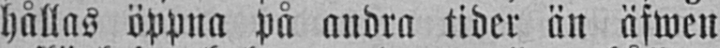hållas öppna på andra tider än äfwen
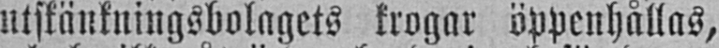utskänkningsbolagets krogar öppenhållas,
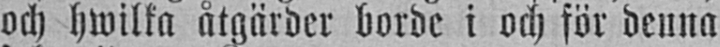och hwilka åtgärder borde i och för denna
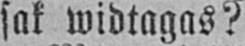sak widtagas?
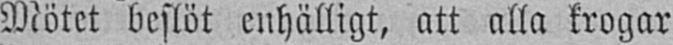Mötet beslöt enhälligt, att alla krogar
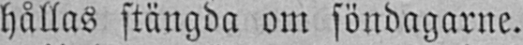hållas stängda om söndagarne.
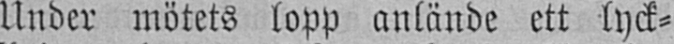Under mötets lopp anlände ett lyck-
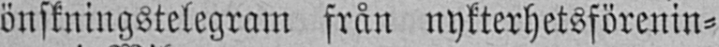önskningstelegram från nykterhetsförenin-
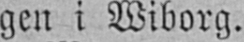gen i Wiborg.
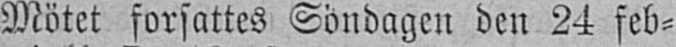Mötet forsattes Söndagen den 24 feb-
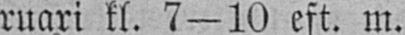ruari kl. 7—10 eft. m.
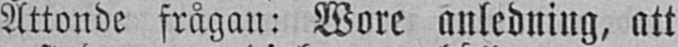Åttonde frågan: Wore anledning, att
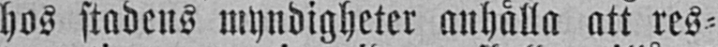hos stadens myndigheter anhålla att res-
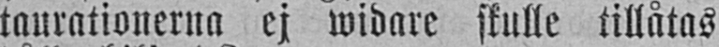taurationerna ej widare skulle tillåtas
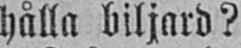hålla biljard?
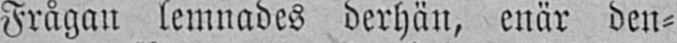Frågan lemnades derhän, enär den-
